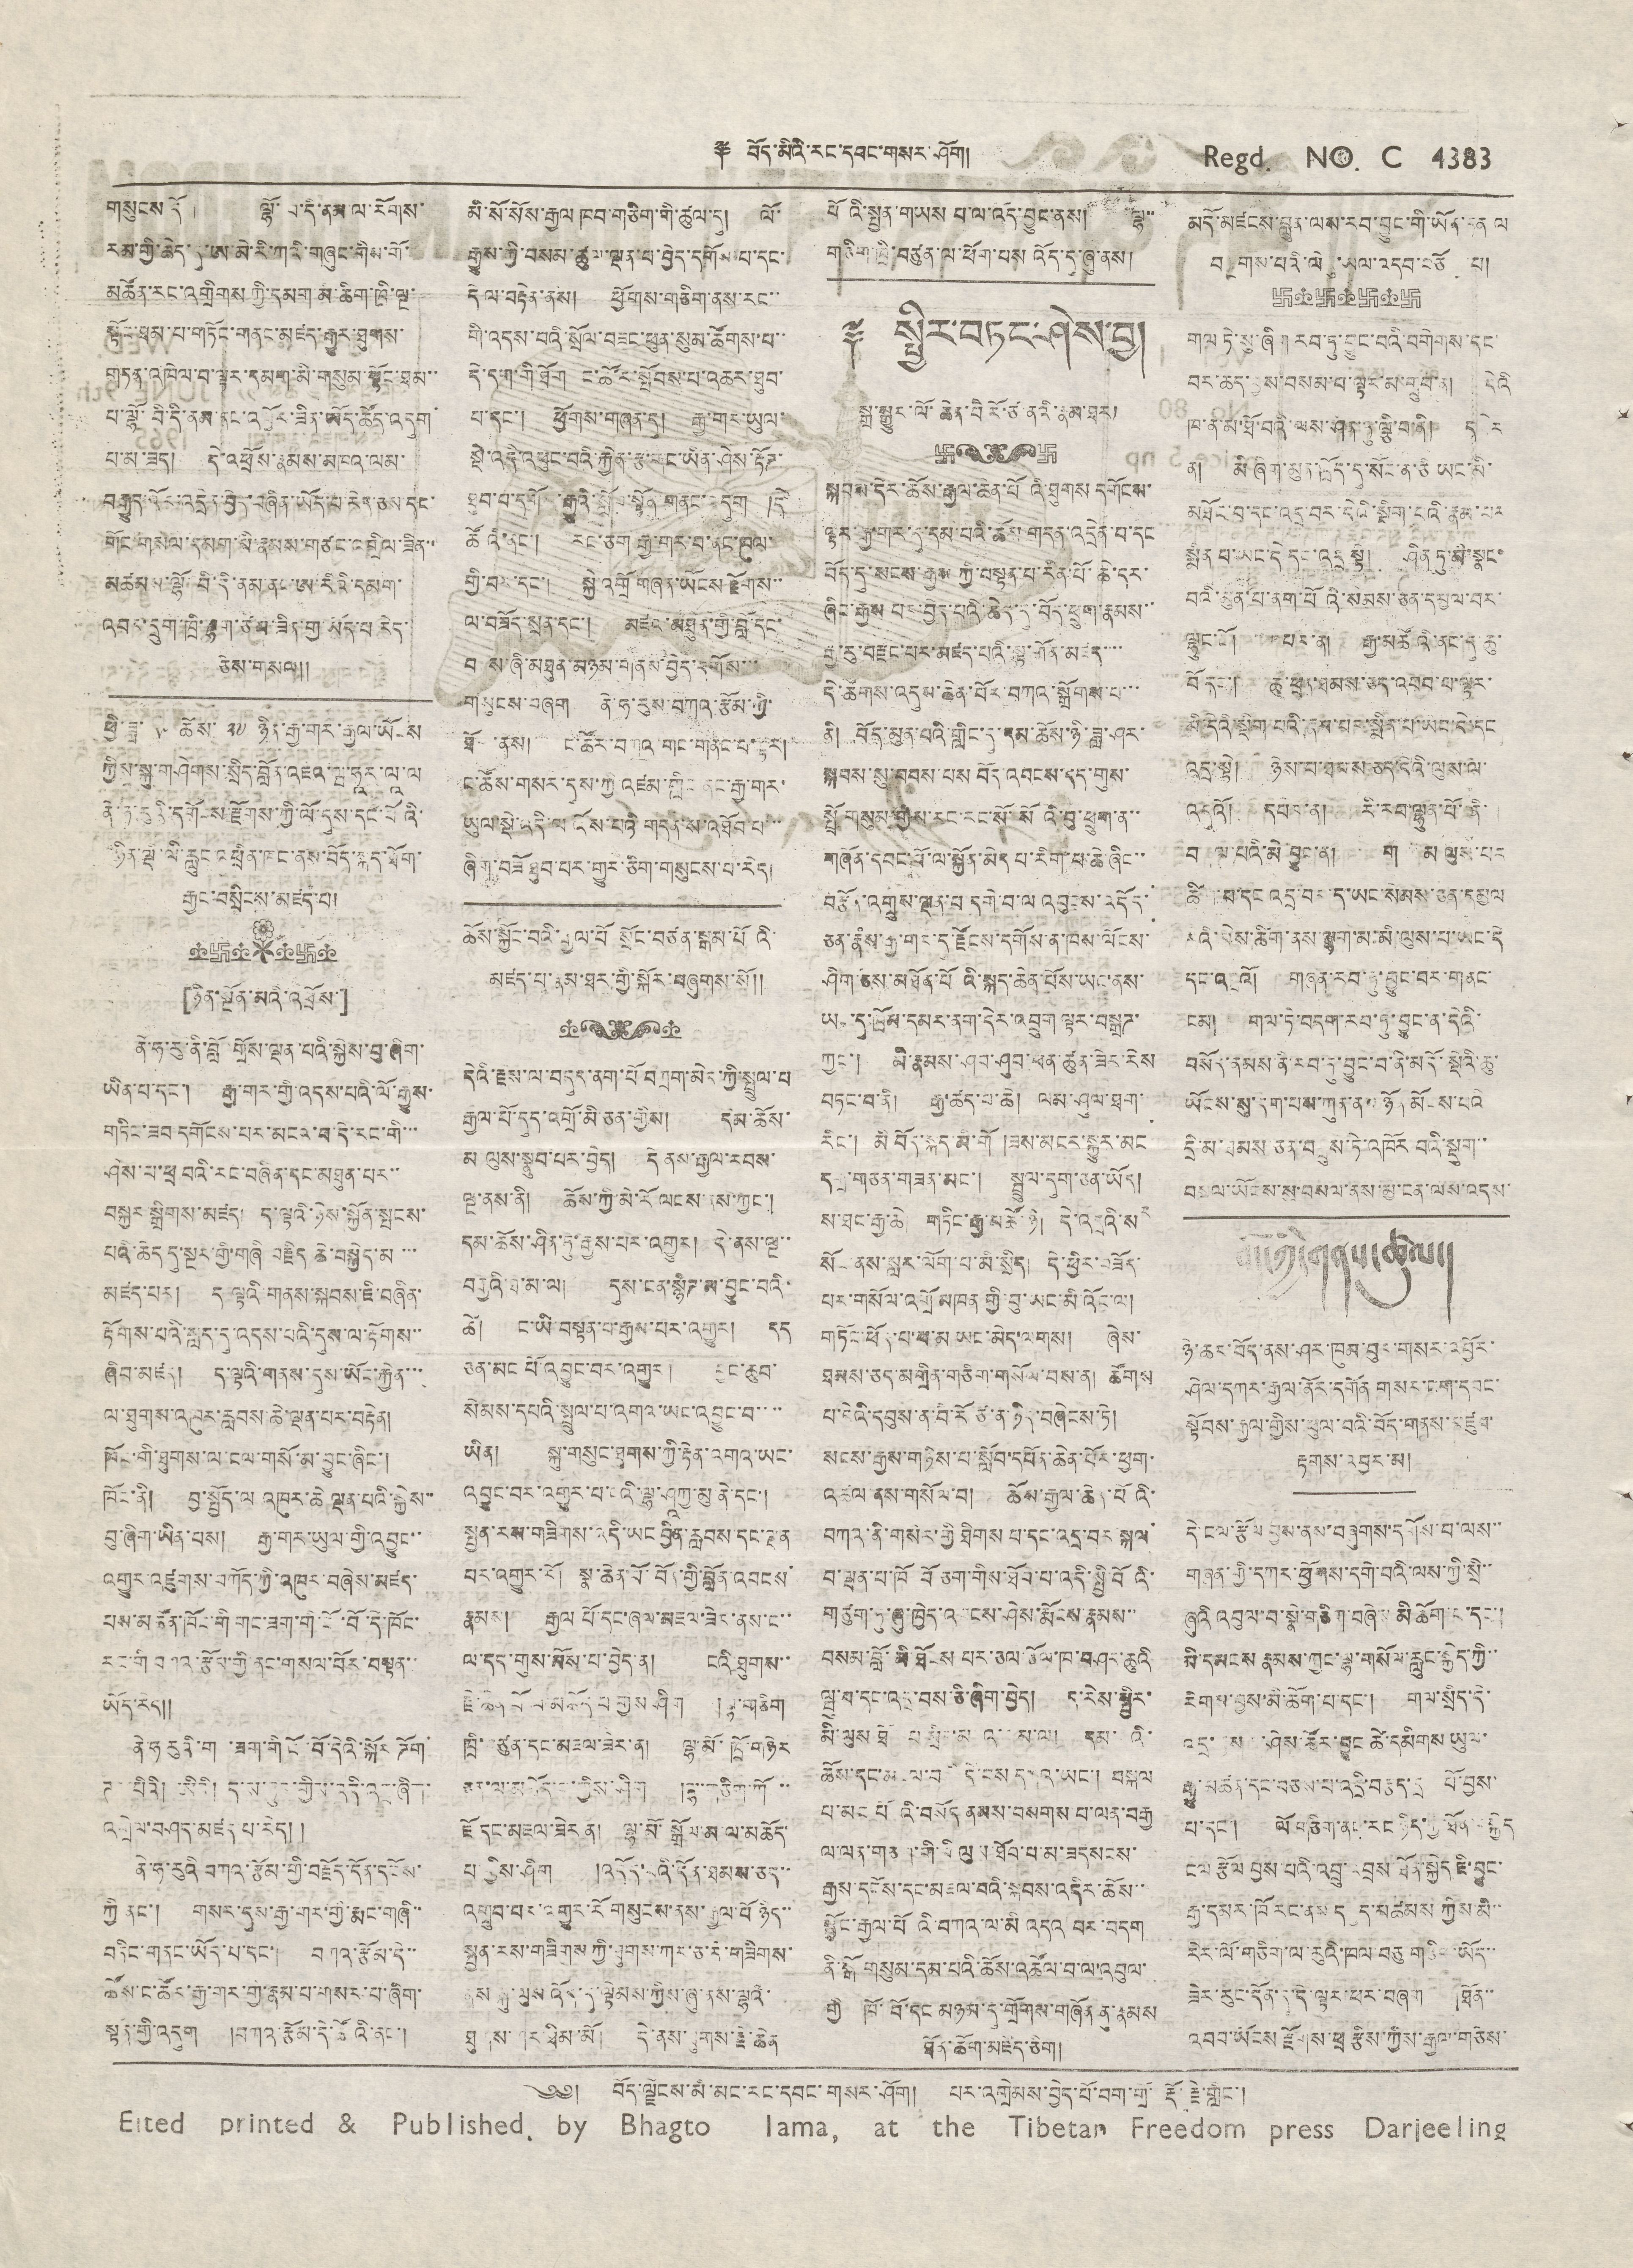༈ བོད་མིའི་རང་དབམག་གསར་ཤོག། Regd. NO. C 4383
གསུངས་དོན། ལྷོ་བི་་དི་ནམ་ལ་རོགས་
རམ་གྱི་ཆེད་དུ་ཨ་མེ་རི་ཀའི་གཞུང་གིས་གོ་
མཚོན་རང་འགྲིགས་ཀྱི་དམག་མི་ཆིག་ཁྲི་ལྔ་
སྟོང་ཐམ་པ་གཏོང་གནང་མཛད་རྒྱུར་ཐུགས་
གཏན་འཁེལ་བ་ལྟར་དམག་མི་གསུམ་སྟོང་ཐམ་་་
པ་ལྷོ་བི་དི་ནམ་ནང་འབྱོར་ཟིན་ཡོད་ཚོད་འདུག
པ་མ་ཟད། དེ་འཕྲོས་རྣམས་མཁའ་ལམ་
བརྒྱུད་འོང་འདྲེན་བྱེད་བཞིན་ཡོད་པ་རེད་ཅེས་དང་
གོང་གསལ་དམག་མི་རྣམས་གཙང་འགྲིལ་ཟིན་་
མཚམས་ལྷོ་བི་དི་ནམ་ནང་ཨ་རིའི་དམག་
འབར་དྲུག་ཁྲི་ལྷག་ཙམ་ཟིན་གྱི་ཡོད་པ་རེད་
ཅེས་གསལ༎
ཕྱི་ཟླ་ ༥ ཚེས་ ༢༧ ཉིན་རྒྱ་གར་ཡོངས་
ཀྱིས་སྐུ་གཤེགས་སྲིད་བློན་འཇའ་ཝ་ཧཱར་ལཱ་ལ་
ནེ་ཧ་རུའི་དགོངས་རྫོགས་ཀྱི་དུས་དང་པོའི་
ཉིན་ལྡི་ལི་རླུང་འཕྲིན་ཁང་ནས་བོད་སྐད་ཐོག་
རྒྱང་བསྲིངས་མཛད་པ།
[ཉིན་སྔོན་མའི་འཕྲོས་]
ནེ་ཧ་རུ་ནི་བློ་གྲོས་ལྡན་པའི་སྐྱེས་བུ་ཞིག་
ཡིན་པ་དང་། རྒྱ་གར་གྱི་འདས་པའི་ལོ་རྒྱུས་
གཏིང་ཟབ དགོངས་པར་མངའ་བ་དེ་རང་གི་་་
ཤེས་པ་ཕྲ བའི་རང་བཞིན་དང་མཐུན་པར་་
བསྐྱར་སྒྲིགས་མཛད། ད་ལྟའི་ཉེས་སྐྱོན་སྤངས་
པའི་ཆེད་དུ་སྔར་ཀྱི་གཞི བརྗིད ཆེ་བསྐྱེད་མ་་་
མཛད་པར། ད ལྟའི་གནས་སྐབས་ཇི་བཞིན་
རྟོགས་པའི་སླད་དུ་འདས་པའི་དུས་ལ་རྟོགས་་
ཞིབ་མཛད། ད་ལྟའི་གནས་དུས་ཡོང་རྐྱེན་་་
ལ་ཐུགས་འཁུར་རླབས་ཆེ་ལྡན་པར་བརྟེན།
ཁོང་གི་ཐུགས་ལ་ངལ་གསོ་མ་བྱུང་ཞིང་།
ཁོང་ནི། བྱ་སྤྱོད་ལ འཁུར་ཆེ་ལྡན་པའི་སྐྱེས་་
བྱ་ཞིག་ཡིན་པས། རྒྱ་གར་ཡུལ་གྱི་འབྱུང་་
འགྱུར་འཛུགས་བཀོད་ཀྱི་འཁུར་བཞེས་མཛད་
པས་མཚོན་ཁོང་གི གང་ཟག་གི་ངོ་བོ་དེ་ཁོང་
རང་གི བཀའ་རྩོམ་གྱི་ནང་གསལ་བོར་བསྟན་་
ཡོད་རེད།།
ནེ་ཧ རུའི་ག ་ཟག་གི ངོ་བོ་དེའི་སྐོར ཌོག
ཊ ་པིའི། ཨིའི། ད་ས་ཉུང་གྱིས་འདི་འདྲ་ཞིག་
འགྲེལ་བཤད་མཛད་པ་རེད། །
ནེ་ཧ་རུའི བཀའ་རྩོམ་གྱི་བརྗོད་དོན་དངོས་
ཀྱི ནང་། གསར་དུས་རྒྱ་གར་གྱི་རྨང་གཞི་་
བཏིང་གནང་ཡོད་པ་དང་། བཀའ་རྩོམ་དེ་་
ཚོས་ང་ཚོར་རྒྱ་གར་གྱི་རྣམ་པ་གསར་པ་ཞིག་
སྟན་གྱི་འདུག །བཀའ་རྩོམ་དེ་ཚོའི་ནང་།
མི་སོ་སོས་རྒྱལ་ཁབ་གཅིག་གི་ཚུལ་དུ། ལོ་
རྒྱུས་ཀྱི་བསམ་ཚུལ་ལྡན་པ་བྱེད་དགོས་པ་དང་
དེ ལ་བརྟེན་ནས། ཕྱོགས་གཅིག་ནས་རང་་
གི་འདས་པའི་སྲོལ་བཟང་ཕུན་སུམ་ཚོགས་པ་་
དེ་དག་གི་ཐོག ང་ཚོར་སྤོབས་པ་འཆར་ཐུབ་
པ་དང་། ཕྱོགས་གཞན་དུ། རྒྱ་གར་ཡུལ་
སྡེ་འདི་འཕུང་བའི་རྐྱེན་རྩ་གང་ཡིན་ཤེས་རྟོཌ་
ཐུབ་པ་དགོས་རྒྱུའི་སློབ་སྟོན་གནང་འདུག །དེ་
ཚོའི་ནང་། རང་ཅག རྒྱ་གར་བ་ནང་ཁུལ་
གྱི་བར་དང་། སྐྱེ་འགྲོ་གཞན་ཡོང་རྫོགས་་
ལ་བཟོད་སྲན་དང་། མཛའ་མཐུན་གྱི་བློ་དང་
བནས་ཞི་མཐུན་མཉམ་གནམ་བྱེད་དགོས་་་
གསུངས་བཞག དེ་ཧ་རུས་བཀའ་རྩོམ་གྱི་
ཐོགས་ནས། ང་ཚོར་བཀའ་གང་གནང་བ་ལྟར།
ང་ཚོས་གསར་དུས་ཀྱི་འཛམ་གླིང་ནང་རྒྱ་གར་
ཡུལ་སྡེ་འདི་ལ་ འོས་པའི་གདན་ས་འཐོབ་པ་་་
ཞིག་བཟོ ཐུབ་པར་གྱུར་ཅིག་གསུངས་པ་རེད།
ཆོས་སྐྱོང་བའི་རྒྱལ་པོ སྲོང་བཙན་སྒམ་པོ འི་
མཛད་པ་རྣམ་ཐར་གྱི་སྐོར་བཞུགས་སོ།།
དེའི་རྫས་ལ་བདུད་ནག་པོ བཀྲག་མོར་གྱི་སྤྲུལ་པ
རྒྱལ་པོ་དུད་འགྲོ་མི་ཅན་གྱིས། དམ་ཆོས་
མ ལུས་སྣུབ་པར་བྱེད། དེ ནས་རྒྱལ་རབས་
ལྔ་ནས་ནི། ཆོས་ཀྱི་མེ་རོ་ལངས་ནས་ཀྱང་།
དམ་ཆོས་ཤིན་ཏུ་རྒྱས་པར་འགྱུར། དེ་ནས་ལྔ་་
བརྒྱའི་ཐ་མ་ལ། དུས་ངན་སྙིཌ་མ་བྱུང་བའི་
ཚེ། ང་ཡི་བསྟན་པ་རྒྱས་པར་འགྱུར། དད
ཅན་མང པོ་འབྱུང་བར་འགྱུར། བྱང་ཆུབ་
སེམས་དཔའི་སྤྲུལ་པ་འགའ་ཡང་འབྱུང་བ་་་་
ཡིན། སྐུ་གསུང་ཐུགས་ཀྱི་རྟེན་འགའ་ཡང་
འབྱུང་བར་འགྱུར་པ་ངའི་ལྷ་ཤྰཀྱ་མུ་ནེ་དང་།
སྤྱན་རས་གཟིགས་འདི་ཡང་བྱིན་རླབས་དང་ལྡན་
པར་འགྱུར་རོ། སྣ་ཆེན་པོ་བོན་གྱི་བློན་འབངས་
རྣམས། རྒྱལ་པོ་དང་ཞལ་མཇལ་ཟེར་ནས་ང་་
ལ་དད་གུས་མོས་པ་བྱེད་ན། ངའི་ཐུགས་་
རྗེ་ཆེན་པོ་མ་མཆོད་པ གྱིས་ཤིག །ལྷ་གཅིག
ཁྲི་བཙུན་དང་མཇལ་ཟེར་ན། ལྷ་མོ་ཁྲོ་གཉེར
ཅན་ལ་མཆོད་པ་གྱིས་ཤིག །ལྷ་གཅིག་ཀོ་་
ཇོ དང་མཇལ་ཟེར ན། ལྷ་མོ་སྒྲོལ་མ་ལ་མཆོད་
པ་གྱིས་ཤིག །འདོད་པའི་དོན་ཐམས་ཅད་་
འགྲུབ་པར་འགྱུར་རོ གསུངས་ནས་རྒྱལ་པོ ཉིད་་
སྤྱན་རས་གཟིགས་ཀྱི་ཐུགས་ཀར་ཅ་རེ་གཟིགས་
ནས་སྐུ་ལུས་འོད་དུ་ལྟེམས་ཀྱིས་ཞུ་ནས་ལྷའི་
ཐུགས་ཤར་ཐིམ་མོ། དེ་ནས་ཐུགས་རྗེ་ཆེན
པོའི་སྤྱན་གཡས པ་ལ་འདི་བྱུང་ནས། ལྷ་་
གཅིག་ཁྲི་བཙུན་ལ་ཕོག་པས་འོད་དུ་ཞུ་ནས།
༈ སྤྱིར་བཏང་ཤེས་བྱ།
སྒྲ་སྒྱུར་ལོ་ཆེན་བཻ་རོ་ཙ་ནའི་རྣམ་ཐར།
སྐབས་དེར་ཆོས་རྒྱལ་ཆེན་པོའི་ཐུགས དགོངས་
ལྟར་རྒྱ་གར་དུ་དམ་པའི་ཆོས་གདན་འདྲེན་པ་དང
བོད་དུ་སངས་རྒྱས་ཀྱི་བསྟན་པ་རིན་པོ་ཆེ་དར་
ཞིང་རྒྱས་པར་བྱེད་པའི་ཆེད་དུ་བོད་ཕྲུག་རྣམས་་
རྒྱ་རུ་བརྫང་པར་མཛད་པའི་སྟ་གོན་མཛད་་་་
དེ་ཚོགས་འདུས་ཆེན་པོར་བཀའ་སྒྲོགས་པ་་་
ནི། བོད་མུན་པའི་གླིང་དུ་དམ་ཆོས་ཉི་ཟླ་ཤར་
སྐབས་སུ་བབས་པས་བོད་འབངས་དད་གུས་
སྤྲོ་གསུམ་གྱིས་རང་རང་སོ་སོའི་བུ་ཕྲུག་ན་་་
གཞོན་དབང་ལ་སྐྱོན་མེད་པ་རིག་པ་ཆེ་ཞིང་་
བརྩོན་འགྲུས་ལྡན་པ་དགེ་བ་ལ་འབུངས་འདོད་
ཅན་རྣཾས་རྒྱ་གར་དུ་རྫོངས་དགོས་ན་ཁས་ལོངས་
ཤིག་ཅེས་མཐོན་པོའི་སྐད་ཆེན་པོས་ཡང་ནས་
ཡང་དུ་ཁྲོམ་དམར་ནག་དེར་འབྲུག་ལྟར་བསྒྲཌ་
ཀྱང་། མི་རྣམས་ཤབ་ཤུབ་ཕན་ཚུན་ཟེར་རེས
བཏང་བ་ནི། རྒྱ་ཚད་པ་ཆེ། ལམ་ཤུལ་ཐག་
རིང་། མི བོད་སྐད་མི་གོ །ཟས་མངར་སྐྱུར་མང
དགྲ་གཅན་གཟན་མང་། སྦྲུལ་དུག་ཅན་ཡོད།
ས་ཐང་རྒྱ་ཆེ། གཏིང་རྒྱ་མཚོ་ཉེ། དེ་འདྲའི་སར་
སོང་ནས་སླར་ལོག་པ་མི་སྲིད། དེ་ཕྱིརར་བཟོད་
པར་གསོལ་འགྲོ་མཁན་གྱི་བུ་ཡང་མི་འོང་ལ།
གཏོང་ཕོད་པ་མ ཡང་མེད་ལགས། ཞེས་
ཐམས་ཅད་མགྲིན་གཅིག་གསོལ་བས་ན། ཚོགས
པ་དེའི་དབུས་ན་བེེ་རོ་ཙ་ན་ཉིད་བཞེངས་ཏེ།
སངས་རྒྱས་གཉིས་པ་སློབ་དཔོན་ཆེན་པོར་ཕྱག་
འཚལ་ནས་གསོལ་བ། ཆོས་རྒྱལ་ཆེན་པའི་
བཀའ་ནི་གསེར་གྱི ཐིགས པ་དང་འདྲ་བར་སྐལ
པ་ལྡན་པ་ཁོ བོ་ཅག་གིས་ཐོབ་པ་འདི་སྤྱི་བོ འི་
གཙུག་ཏུ་ཞུ་ཁྱེད་འབངས་ཤེས་རྨོངས་རྣམས་་
བསམ་བློ་མི་ཐོངས པར་ཅལ་ཅོལ་ཁ་བཤང་ཆུའི
ལྦུ་བ་དང་འདྲ་བས་ཅི་ཞིག་བྱེད། ད་རེས་སྤྱིར་
མི་ལུས་ཐོབ་པ་སྲིད་མ འ་མ་ལ། དམ་པའི་
ཆོས་དང་མ ལ་བ དེ་ངས དམའ་ཡང་། བསྐལ
པ་མང པོའི་བསོད ནམས་བསགས་པ་ལན་བརྒྱ
ལ་ལན་གཅིག་གི་མི་ལུས་ཐོབ་པ་མ་ཟད སངས་
རྒྱས་དངོས་དང་མཇལ་བའི་སྐབས་འདིར་ཆོས་་
སྐྱོང་རྒྱལ་པའི་བཀའ་ལ་མི འདའ བར་བདག
ནི་སྒོ གསུམ་དམ་པའི་ཆོས་འཚོལ་བ་ལ་འབུལ་
གྱི ཁོ་བོ་དང མཉམ་དུ་གྲོགས་གཞོན ནུ་རྣམས
ཐོན་ཆོག་མཛེད་ཅིག །
མདོ་མཛངས་བླུན་ལས་རབ་བྱུང་གི་ཡོན་ཏན ལ
བསྔགས་པའི་ལེའུ་ཡལ་འདབ་བཅོ ་པ།
གལ་ཏེ་སུ་ཞིག རབ་ཏུ་བྱུང་བའི་བགེགས་དང་
བར་ཆད་བྱས་བསམ་པ་ལྟར་མ་གྲུབ་ན། དེའི
ཁ་ན་མ་ཐོ་བའི་ལས་ཤིན་ཏུ་ལྕི་བ་ནི། དཔེར
ན། མི ཞིག་མུན་ཁྲོད་དུ་སོང་ན་ཅི ཡང་མི་
མཐོང་བ་དང་འདྲ་བར་དེའི་སྡིག་པའི་རྣམ་པར
སྨིན པ་ཡང་དེ དང་འདྲ་སྟེ། ཤིན་ཏུ་མི་སྣང་
བའི་མུན་པ་ནག་པོའི་སེམས་ཅན་དམྱལ་བར་
ལྷུང་ངོ། པར་ན། རྒྱ་མཚོའི་ནང་དུ་ཆུ་
བོ དང་། ཆུ་ཕྲན་ཐམས་ཅད་འབབ་པ་ལྟར་
མི་དེའི་སྡིག་པའི་རྣམ་པར་སྨིན་པ་ཡང་དེ་དང
འདྲ་སྟེ། ཉེས་བ་ཐམས་ཅད་དེའི་ལུས་ལ་
འདུའོ། དཔེར་ན། རི་རབ་ལྷུན་པོ་ནི་
བ ལ་པའི་མི བྱུང་ན། ག མ ལུས་པར
ཚིག་པ་དང་འདྲ་བར་ད་ཡང་སེམས་ཅན་དམྱལ
པའི་མེས་ཚིག་ནས་ལྷག་མ་མི་ལུས་པ་ཡང་དེ
དང་འདྲའོ། གཞན་རབ་ཏུ་བྱུང་བར་གནང་
ངམ། གལ་ཏེ་བདག་རབ་ཏུ་བྱུང་ན་དེའི་
བསོད་ནམས་ནི་རབ་ཏུ་བྱུང་བ་ནི་མདོ་སྡེའི་ཆུ་
ཡོངས་སུ་དག་པས་ཀུན་ནས་ཉོན མོངས་པའི་
དྲི་མ་ཐམས་ཅན་བགྲུས་ཏེ་འཁོར བའི་སྡུག་་
བསྔལ་ཡོངས་སུ་བསལ་ནས་མྱ་ངན་ལས་འདས་
བོད་ཀྱི་གནས་ཚུལ།
ཉེ་ཆར་བོད་ནས་ཤར་ཁུམ་བུར་གསར་འབྱོར་
ཤེལ་དཀར་རྒྱལ་ནོར་དགོན གསར་ངག་དབང་
སྟོབས་རྒྱལ་གྱིས་ཕུལ་བའི་བོད་གནས་མཛུབ་
རྟགས་འབྱར་མ།
དེ་ངལ་རྩོལ་བྱས་ནས་བཞུགས་དགོས་པ་ལས་་
གཞན་གྱི་དཀར་ཕྱོགས་དགེ་བའི་ལས་ཀྱི་སྲི་་
ཞུའི་འབུལ་བ་སྣེ་གཅིག་བཞེས་མི་ཆོག་ང་དང་།
མི་དམངས རྣམས་ཀྱང་ལྷ་གསོལ་རླུང་སྐྱེད་ཀྱི་་
རིགས་བྱས་མི་ཆོག་པ་དང་། གལ་སྲིད་དེ་
འདྲ་བྱས ་ཤེས་ཚོར་བྱུང ཚེ་དམིགས ཡུལ་
རྒྱུ་མཚན་དང་བཅས་པ་འདྲི་བརྩད་དྲ པོ་བྱས་
པ་དང་། ལོ་གཅིག་ནང་རང་ཉིད་ཀྱི་ཐོན་བསྐྱེད
ངལ་རྩོལ བྱས་པའི་འབྲུ་འབྲས་ཐོན་སྐྱེད ཇི་བྱུང་
རྒྱ་དམར་ཁོ་རང་ནས་དཔྱད་མཚམས ཀྱིས་མི་་
རེར་ལོ་གཅིག་ལ་རུའི་ཁལ་བཅུ་གཅིག་ཡོད་་
ཟེར་རུང་དོན་དུ་དེ་ལྟར་ཕར་བཞག །ཐོན་་
འབབ་ཡོངས་རྫོགས་ཕྲ རྩིས་ཀྱིས་རྒྱལ་གཅེས་
༄༅། །བོད་ལྗོངས་མི་མང་རང་དབང་གསར་ཤོག། པར་འགྲེམས་བྱེད་པོ་བག་གྲོ་ རྡོ་རྗེ་གླིང་།
Edited printed & published by Bhagto lama, at the Tibetan Freedom press Darjeeling
